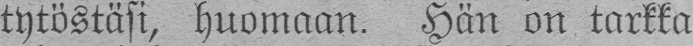tytöstäsi, huomaan. Hän on tarkka
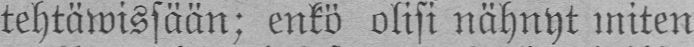tehtäwissään; enkö olisi nähnyt miten
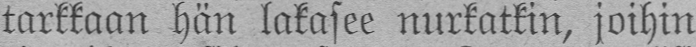tarkkaan hän lakasee nurkatkin, joihin
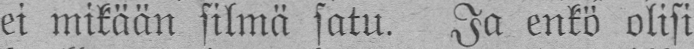ei mikään silmä satu. Ja enkö olisi
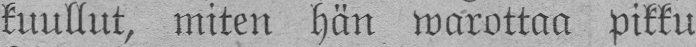kuullut, miten hän warottaa pikku
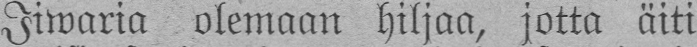Iiwaria olemaan hiljaa, jotta äiti
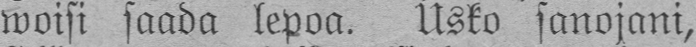woisi saada lepoa. Usko sanojani,
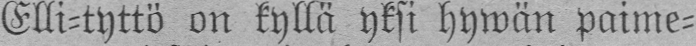Elli-tyttö on kyllä yksi hywän paime-
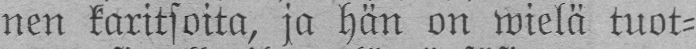nen karitsoita, ja hän on wielä tuot-
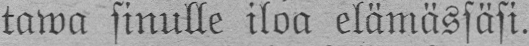tawa sinulle iloa elämässäsi.
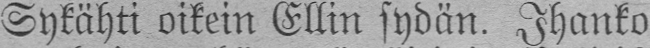Sykähti oikein Ellin sydän. Ihanko
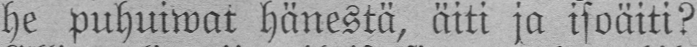he puhuiwat hänestä, äiti ja isoäiti?
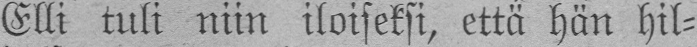Elli tuli niin iloiseksi, että hän hil-
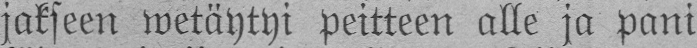jakseen wetäytyi peitteen alle ja pani
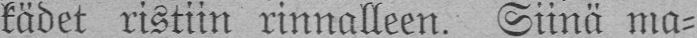kädet ristiin rinnalleen. Siinä ma-
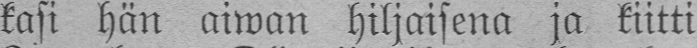kasi hän aiwan hiljaisena ja kiitti
